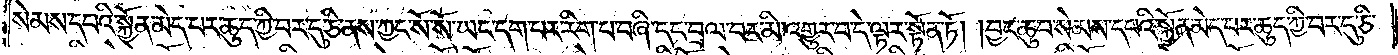སེམས་དཔའི་སྐྱོན་མེད་པར་ཆུད་ཀྱི་བར་དུ་ཅི་ནས་ཀྱང་སོ་སོ་ཡང་དག་པར་རིག་པ་བཞི་དང་བྲལ་བར་མི་འགྱུར་བ་དེ་ལྟར་སྟོན་ཏོ། །བྱང་ཆུབ་སེམས་དཔའི་སྐྱོན་མེད་པར་ཆུད་ཀྱི་བར་དུ་ཅི་
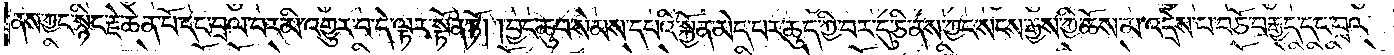ནས་ཀྱང་སྙིང་རྗེ་ཆེན་པོ་དང་བྲལ་བར་མི་འགྱུར་བ་དེ་ལྟར་སྟོན་ཏོ། །བྱང་ཆུབ་སེམས་དཔའི་སྐྱོན་མེད་པར་ཆུད་ཀྱི་བར་དུ་ཅི་ནས་ཀྱང་སངས་རྒྱས་ཀྱི་ཆོས་མ་འདྲེས་པ་བཅོ་བརྒྱད་དང་བྲལ་
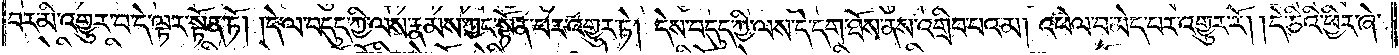བར་མི་འགྱུར་བ་དེ་ལྟར་སྟོན་ཏོ། །དེ་ལ་བདུད་ཀྱི་ལས་རྣམས་ཀྱང་སྟོན་པར་འགྱུར་ཏེ། དེས་བདུད་ཀྱི་ལས་དེ་དག་ཐོས་ནས་འགྲིབ་པའམ། འཕེལ་བ་མེད་པར་འགྱུར་རོ། །དེ་ཅིའི་ཕྱིར་ཞེ་
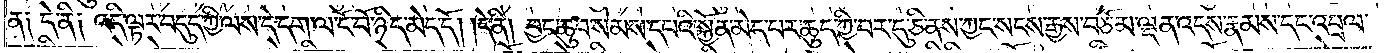ན༑ དེ་ནི༑ འདི་ལྟར་བདུད་ཀྱི་ལས་དེ་དག་ལ་ངོ་བོ་ཉིད་མེད་དོ། །དེ་ནི། བྱང་ཆུབ་སེམས་དཔའི་སྐྱོན་མེད་པར་ཆུད་ཀྱི་བར་དུ་ཅི་ནས་ཀྱང་སངས་རྒྱས་བཅོམ་ལྡན་འདས་རྣམས་དང་འབྲལ་
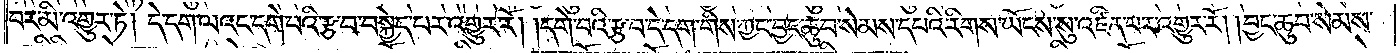བར་མི་འགྱུར་ཏེ། དེ་དག་ལའང་དགེ་བའི་རྩ་བ་བསྐྱེད་བར་འགྱུར་རོ། །དགེ་བའི་རྩ་བ་དེ་དག་གིས་ཀྱང་བྱང་ཆུབ་སེམས་དཔའི་རིགས་ཡོངས་སུ་འཛིན་པར་འགྱུར་རོ། །བྱང་ཆུབ་སེམས་
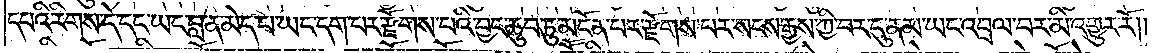དཔའི་རིགས་དེ་དང་ཡང་བླ་ན་མེད་པ་ཡང་དག་པར་རྫོགས་པའི་བྱང་ཆུབ་ཏུ་མངོན་པར་རྫོགས་པར་སངས་རྒྱས་ཀྱི་བར་དུ་ནམ་ཡང་འབྲལ་བར་མི་འགྱུར་རོ༎
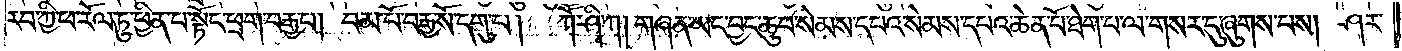རབ་ཀྱི་ཕ་རོལ་ཏུ་ཕྱིན་པ་སྟོང་ཕྲག་བརྒྱ་པ། །བམ་པོ་བརྒྱ་སོ་དགུ་པ། ཀཽ་ཤི་ཀ། གཞན་ཡང་བྱང་ཆུབ་སེམས་དཔའ་སེམས་དཔའ་ཆེན་པོ་ཐེག་པ་ལ་གསར་དུ་ཞུགས་པས། ཤར་
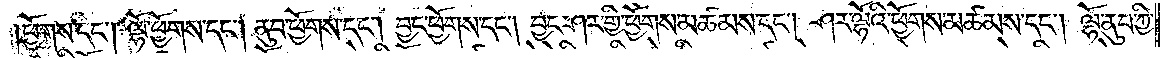ཕྱོགས་དང༌། ལྷོ་ཕྱོགས་དང༌། ནུབ་ཕྱོགས་དང༌། བྱང་ཕྱོགས་དང༌། བྱང་ཤར་གྱི་ཕྱོགས་མཚམས་དང༌། ཤར་ལྷོའི་ཕྱོགས་མཚམས་དང༌། ལྷོ་ནུབ་ཀྱི་
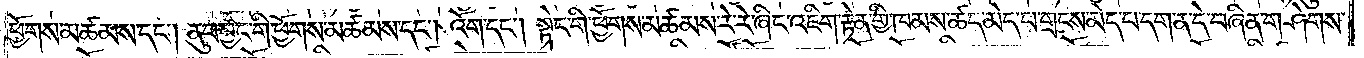ཕྱོགས་མཚམས་དང༌། ནུབ་བྱང་གི་ཕྱོགས་མཚམས་དང༌། འོག་དང༌། སྟེང་གི་ཕྱོགས་མཚམས་རེ་རེ་ཞིང་འཇིག་རྟེན་གྱི་ཁམས་ཚད་མེད་པ་གྲངས་མེད་པ་དག་ན་དེ་བཞིན་གཤེགས་
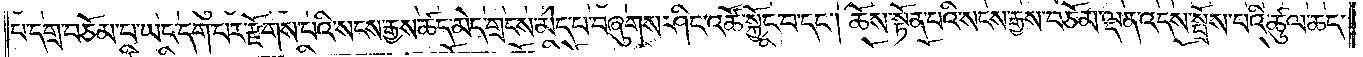པ་དགྲ་བཅོམ་པ་ཡང་དག་པར་རྫོགས་པའི་སངས་རྒྱས་ཚད་མེད་གྲངས་མེད་པ་བཞུགས་ཤིང་འཚོ་སྐྱོང་བ་དང༌། ཆོས་སྟོན་པའི་སངས་རྒྱས་བཅོམ་ལྡན་འདས་སྤྲོས་པའི་ཚུལ་ཆད་
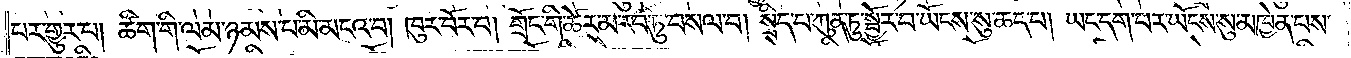པར་གྱུར་པ། ཚིག་གི་ལམ་ཉམས་པ་མི་མངའ་བ། ཁུར་བོར་བ། གྲོང་གི་ཚེར་མ་རབ་ཏུ་བསལ་བ། སྲིད་བ་ཀུན་ཏུ་སྦྱོར་བ་ཡོངས་སུ་ཆད་པ། ཡང་དག་པར་ཡོངས་སུ་མཁྱེན་པས་
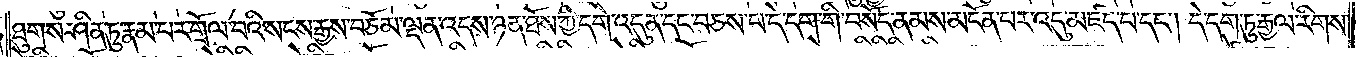ཐུགས་ཤིན་ཏུ་རྣམ་པར་གྲོལ་བའི་སངས་རྒྱས་བཅོམ་ལྡན་འདས་ཉན་ཐོས་ཀྱི་དགེ་འདུན་དང་བཅས་པ་དེ་དག་གི་བསོད་ནམས་མངོན་པར་འདུ་མཛད་པ་དང༌། དེ་དག་ཏུ་རྒྱལ་རིགས་
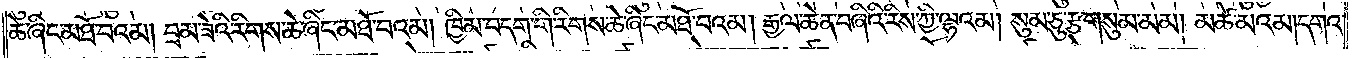ཆེ་ཞིང་མཐོ་བའམ། བྲམ་ཟེའི་རིགས་ཆེ་ཞིང་མཐོ་བའམ། ཁྱིམ་བདག་གི་རིགས་ཆེ་ཞིང་མཐོ་བའམ། རྒྱལ་ཆེན་བཞིའི་རིས་ཀྱི་ལྷའམ། སུམ་ཅུ་རྩ་གསུམ་མམ། མཚེ་མའམ། དགའ་
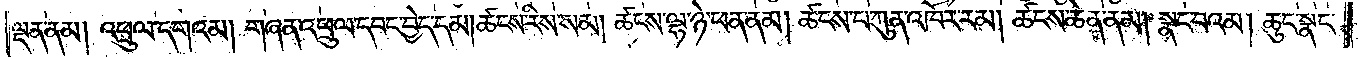ལྡན་ནམ། འཕྲུལ་དགའམ། གཞན་འཕྲུལ་དབང་བྱེད་དམ། ཚངས་རིས་སམ། ཚངས་ལྷ་ཉེ་ཕན་ནམ། ཚངས་པ་ཀུན་འཁོར་རམ། ཚངས་ཆེན་ནམ། སྣང་བའམ། ཆུང་སྣང་
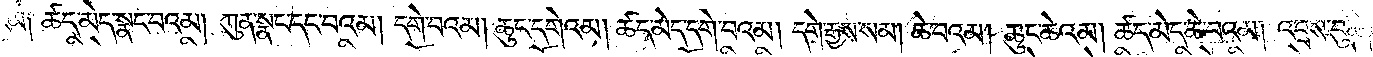ངམ༑ ཚད་མེད་སྣང་བའམ། ཀུན་སྣང་དང་བའམ། དགེ་བའམ། ཆུང་དགེའམ། ཚད་མེད་དགེ་བའམ། དགེ་རྒྱས་སམ། ཆེ་བའམ། ཆུང་ཆེའམ། ཚད་མེད་ཆེ་བའམ། འབྲས་བུ་ཆེ་
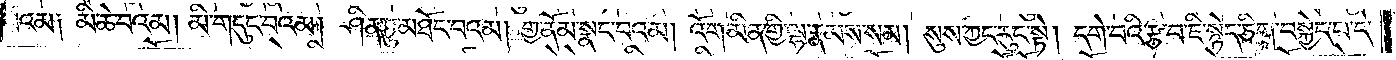བའམ༑ མི་ཆེ་བའམ། མི་གདུང་བའམ། ཤིན་ཏུ་མཐོང་བའམ། གྱ་ནོམ་སྣང་བའམ། འོག་མིན་གྱི་ལྷ་རྣམས་སམ། སུས་ཀྱང་རུང་སྟེ། དགེ་བའི་རྩ་བ་ཇི་སྙེད་ཅིག་བསྐྱེད་པ་དེ་
